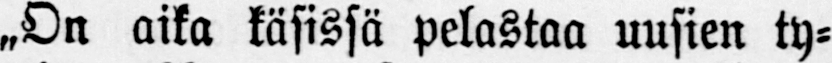„On aika käsissä pelastaa uusien ty-
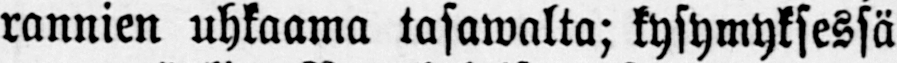rannien uhkaama tasawalta; kysymyksessä
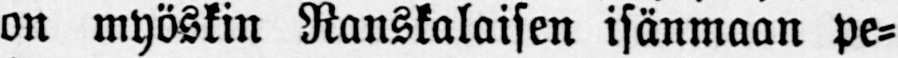on myöskin Ranskalaisen isänmaan pe-
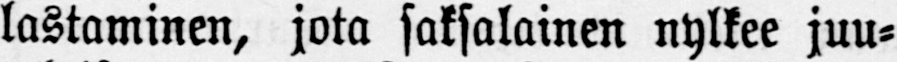lastaminen, jota saksalainen nylkee juu-
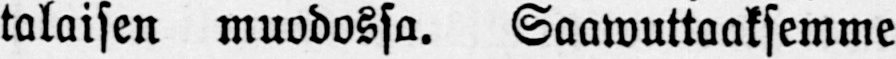talaisen muodossa. Saawuttaaksemme
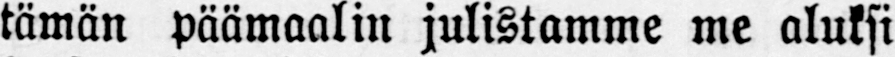tämän päämaalin julistamme me aluksi
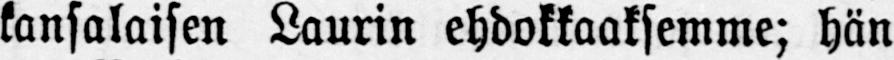kansalaisen Laurin ehdokkaaksemme; hän
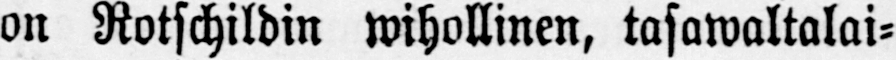on Rotachildin wihollinen, tasawaltalai-
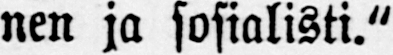nen ja sosialisti."
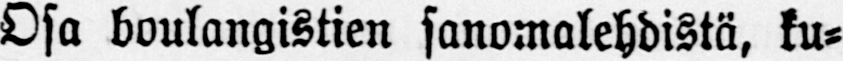Osa boulangistien sanomalehdistä, ku-
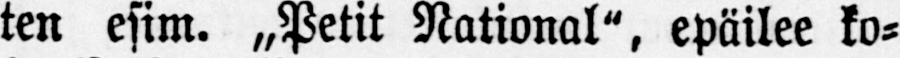ten esim. „Petit National", epäilee ko-
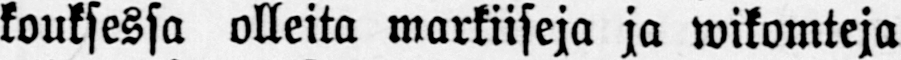kouksessa olleita markiiseja ja wikomteja
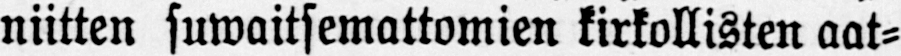niitten suwaitsemattomien kirkollisten aat-
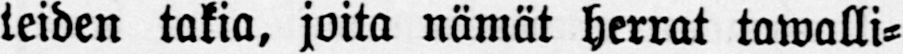teiden takia, joita nämät herrat tawalli-
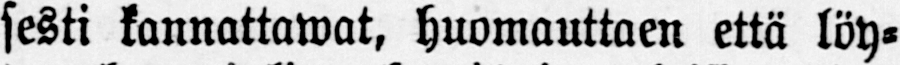sesti kannattawat, huomauttaen että löy-
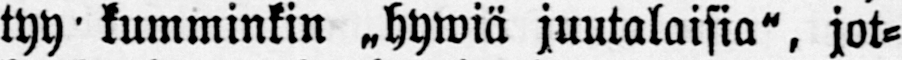tyy kumminkin „hywiä juutalaisia", jot-
